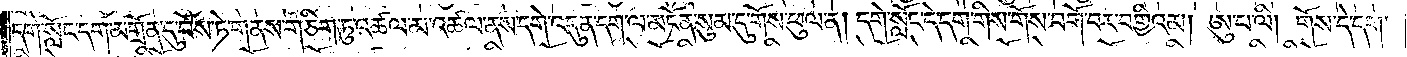དགེ་སློང་དག་མགྲོན་དུ་བོས་ཏེ་གནས་གཅིག་ཏུ་འཚལ་མ་འཚལ་ནས་དགེ་འདུན་དག་ལ་མངོན་སུམ་དུ་གོས་ཕུལ་ན། དགེ་སློང་དེ་དག་གིས་གོས་བགོ་བར་བགྱིའམ། ཨུ་པ་ལི། གོས་དེ་དག་
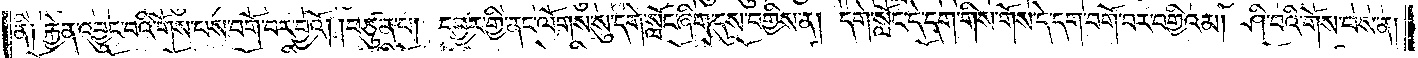ནི། རྐྱེན་འབྱུང་བའི་གོས་པས་བགོ་བར་བྱའོ། །བཙུན་པ། དབྱར་གྱི་ནང་ལོགས་སུ་དགེ་སློང་ཞིག་དུས་བགྱིས་ན། དགེ་སློང་དེ་དག་གིས་གོས་དེ་དག་བགོ་བར་བགྱིའམ། ཤི་བའི་གོས་བས་ན།
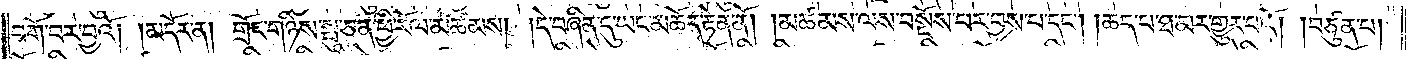བགོ་བར་བྱའོ། །མདོར་ན། གྲོང་གཉིས་སྤུ་ཅན་ཕྱི་རོལ་མཚམས། །དེ་བཞིན་དུ་ཡང་མཆོད་རྟེན་ནོ། །མཚམས་ལས་བསྔོས་པར་བྱས་པ་དང༌། །ཆད་པ་ཐ་མར་གྱུར་པའོ། །བཙུན་པ།
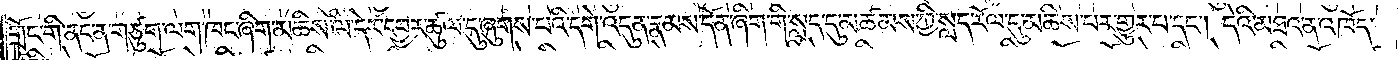གྲོང་གི་ནང་ན་གཙུག་ལག་ཁང་ཞིག་མཆིས་ལ་དེར་དབྱར་ཚུལ་དུ་ཞུགས་པའི་དགེ་འདུན་རྣམས་དོན་ཞིག་གི་སླད་དུ་མཚམས་ཀྱི་སླད་རོལ་དུ་མཆིས་པར་གྱུར་པ་དང༌། དེའི་མཐའ་ན་འཁོད་
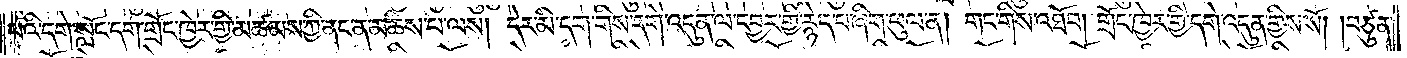པའི་དགེ་སློང་དག་གྲོང་ཁྱེར་གྱི་མཚམས་ཀྱི་ནང་ན་མཆིས་པ་ལས། དེར་མི་དག་གིས་དགེ་འདུན་ལ་དབྱར་གྱི་རྙེད་པ་ཞིག་ཕུལ་ན། གང་གིས་འཐོབ། གྲོང་ཁྱེར་གྱི་དགེ་འདུན་གྱིས་སོ། །བཙུན་
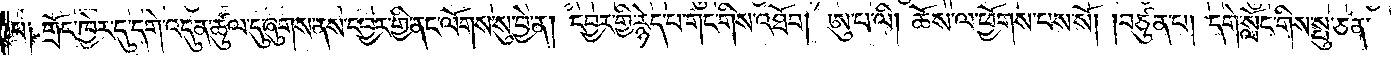པ། གྲོང་ཁྱེར་དུ་དགེ་འདུན་ཚུལ་དུ་ཞུགས་ནས་དབྱར་གྱི་ནང་ལོགས་སུ་བྱེ་ན། དབྱར་གྱི་རྙེད་པ་གང་གིས་འཐོབ། ཨུ་པ་ལི། ཆོས་ལ་ཕྱོགས་པས་སོ། །བཙུན་པ། དགེ་སློང་གིས་སྤུ་ཅན་
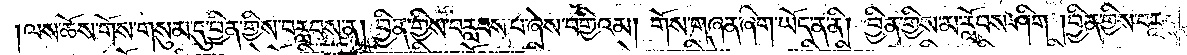ལས་ཆོས་གོས་གསུམ་དུ་བྱིན་གྱིས་བརླབས་ན། བྱིན་གྱིས་བརླབས་པ་ཞེས་བགྱིའམ། གོས་གཞན་ཞིག་ཡོད་ན་ནི། བྱིན་གྱིས་མ་རློབས་ཤིག །བྱིན་གྱིས་བརླབས་
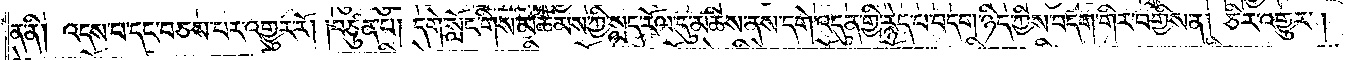ན་ནི། འདས་པ་དང་བཅས་པར་འགྱུར་རོ། །བཙུན་པ། དགེ་སློང་གིས་མཚམས་ཀྱི་སླད་རོལ་དུ་མཆིས་ནས་དགེ་འདུན་གྱི་རྙེད་པ་བདག་ཉིད་ཀྱིས་བདག་གིར་བགྱིས་ན། ཅིར་འགྱུར།
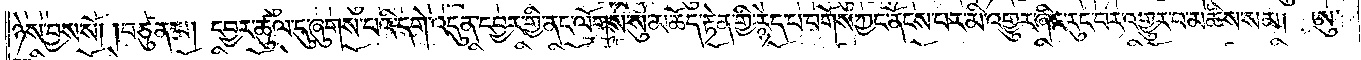ཉེས་བྱས་སོ། །བཙུན་པ། དབྱར་ཚུལ་དུ་ཞུགས་པའི་དགེ་འདུན་དབྱར་གྱི་ནང་ལོགས་སུ་མཆོད་རྟེན་གྱི་རྙེད་པ་བགོས་ཀྱང་ནོངས་པར་མི་འགྱུར་ཞིང་རུང་བར་འགྱུར་བ་མཆིས་སམ། ཨུ་
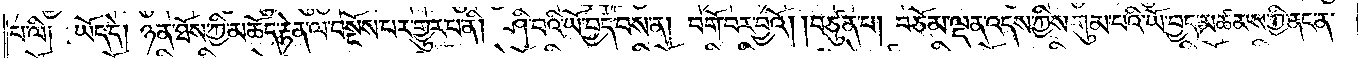པ་ལི༑ ཡོད་དེ། ཉན་ཐོས་ཀྱི་མཆོད་རྟེན་ལ་བསྔོས་པར་གྱུར་པ་ནི། ཤི་བའི་ཡོ་བྱད་བས་ན། བགོ་བར་བྱའོ། །བཙུན་པ། བཅོམ་ལྡན་འདས་ཀྱིས་གུམ་པའི་ཡོ་བྱད་མཚམས་ཀྱི་ནང་ན་
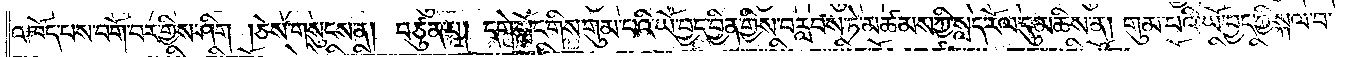འཁོད་པས་བགོ་བར་གྱིས་ཤིག །ཅེས་གསུངས་ན། བཙུན་པ། དགེ་སློང་གིས་གུམ་པའི་ཡོ་བྱད་བྱིན་གྱིས་བརླབས་ཏེ་མཚམས་ཀྱི་སླད་རོལ་དུ་མཆིས་ན། གུམ་པའི་ཡོ་བྱད་ཀྱི་སྐལ་བ་
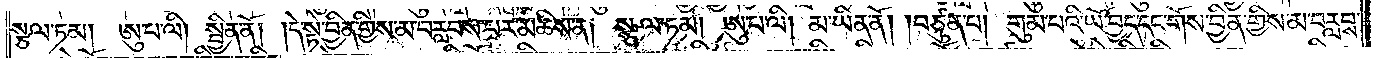སྩལ་ཏམ། ཨུ་པ་ལི། སྦྱིན་ནོ། །དེ་སྟེ་བྱིན་གྱིས་མ་བརླབས་པར་མཆིས་ན། སྩལ་ཏམ། ཨུ་པ་ལི། མ་ཡིན་ནོ། །བཙུན་པ། གུམ་པའི་ཡོ་བྱད་དང་གོས་བྱིན་གྱིས་མ་བརླབས་
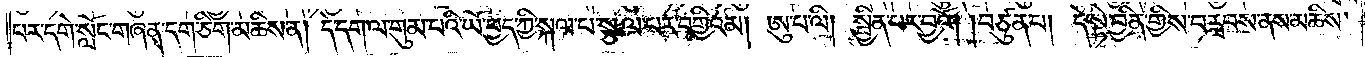པར་དགེ་སློང་གཞན་དག་ཅིག་མཆིས་ན། དེ་དག་ལ་གུམ་པའི་ཡོ་བྱད་ཀྱི་སྐལ་པ་སྩལ་པར་བགྱིའམ། ཨུ་པ་ལི། སྦྱིན་པར་བྱའོ། །བཙུན་པ། དེ་སྟེ་བྱིན་གྱིས་བརླབས་ནས་མཆིས་
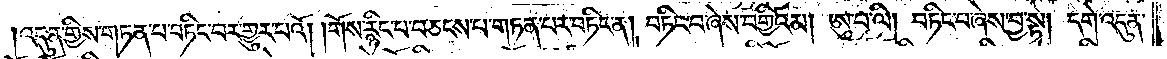འདུན་གྱིས་གཏན་པ་བཏིང་བར་གྱུར་པའོ། །གོས་རྙིང་པ་བཅངས་པ་གཏན་པར་བཏིང་ན། བཏིང་བ་ཞེས་བགྱིའམ། ཨུ་པ་ལི། བཏིང་བ་ཞེས་བྱ་སྟེ། དགེ་འདུན་
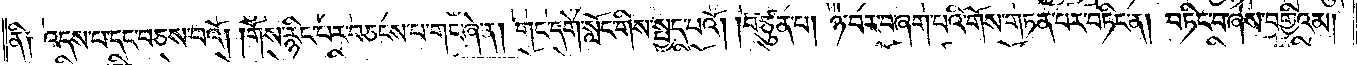ནི༑ འདས་པ་དང་བཅས་པའོ། །གོས་རྙིང་པར་བཅངས་པ་གང་ཞེ་ན། གང་དགེ་སློང་གིས་སྤྱད་པའོ། །བཙུན་པ། ཉེ་བར་བཞག་པའི་གོས་གཏན་པར་བཏིང་ན། བཏིང་བ་ཞེས་བགྱིའམ།
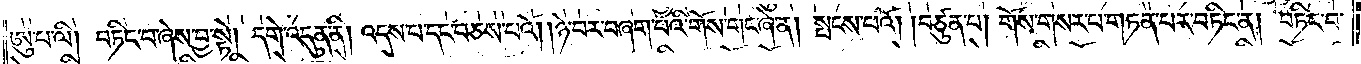ཨུ་པ་ལི། བཏིང་བ་ཞེས་བྱ་སྟེ། དགེ་འདུན་ནི། འདས་པ་དང་བཅས་པའོ། །ཉེ་བར་བཞག་པའི་གོས་གང་ཞེ་ན། སྤངས་པའོ། །བཙུན་པ། གོས་གསར་པ་གཏན་པར་བཏིང་ན། བཏིང་བ་
